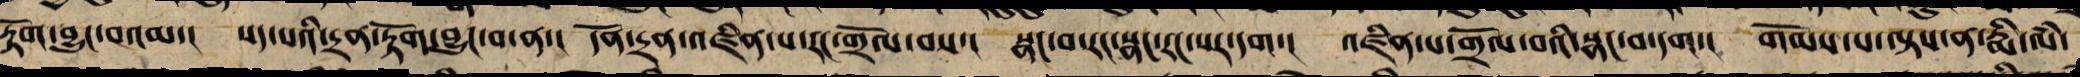རྟོག་བྱུང་བའམ་། སད་པའི་དྲན་རྟོག་བྱུང་བ་ན་། དོན་དྲན་འཛིན་པ་རང་གྲོལ་བས་། སྣང་བ་རང་སྣང་རང་སར་དག་། འཛིན་པ་གྲོལ་བའི་སྣང་བ་དག་། གོམས་པ་ལྟས་ན་རྨི་ལཾ་
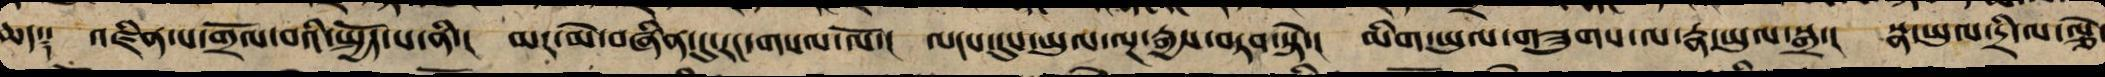ཆད༑ འཛིན་པ་གྲོལ་བའི་སྤྱོད་པ་ནི་། མར་མེ་བཞིན་དུ་རང་གསལ་ལོ་། ལངས་དུས་ཡུལ་ལྔ་རྒྱས་བཏབ་སྟེ་། མིག་ཡུལ་གཟུགས་ལ་རྣ་ཡུལ་སྒྲ་། སྣ་ཡུལ་དྲི་ལ་ལྕེ་
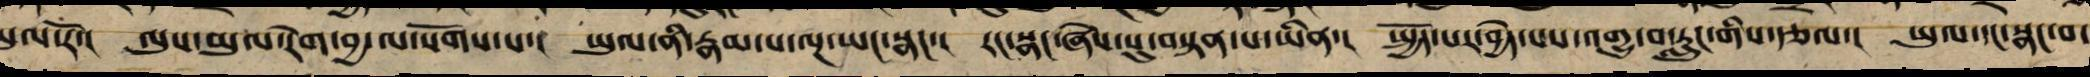ཡུལ་རོ་། ལུས་ཡུལ་རེག་བྱ་ལ་སོགས་པ་། ཡུལ་ནི་རྣམ་པ་ལྔ་ཡང་སྣང་། རང་སྣང་ཞེས་སུ་བསྟན་པ་ཡིན་། སྤྱོད་པར་བྱེད་པས་འགྱུ་བ་རླུང་གི་རྩལ་། ཡུལ་དང་སྣང་བ་
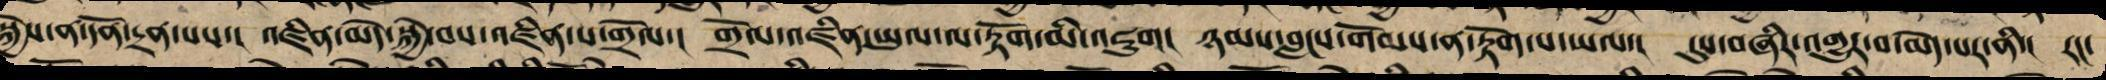སྐྱེས་ནས་དོན་དྲན་པས་། འཛིན་མེད་སྐྱེ་བས་འཛིན་པ་གྲོལ་། གྲོལ་འཛིན་ཡུལ་ལ་རྟོག་མི་འཇུག། ཉམས་བླངས་གོམས་ན་རྟོག་པ་ཡལ་། དུས་བཞིར་འགྱུ་བ་མེད་པར་ནི་། རང་
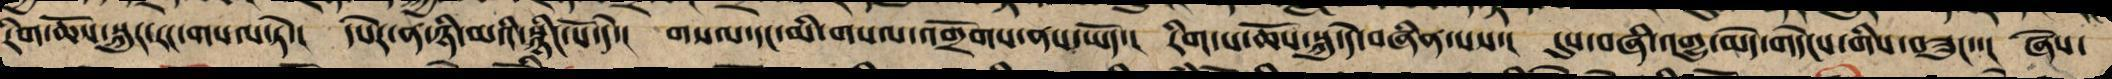རིག་ཆོས་སྐུར་རང་གསལ་ཏེ་། དཔེར་ན་ཉི་མའི་སྙིང་པོ་དེ་། གསལ་དང་མི་གསལ་འགྲོགས་ནས་ཡོད་། རིག་པ་ཆོས་སྐུ་དེ་བཞིན་པས་། དུས་བཞི་འགྱུར་མེད་གདེངས་གིས་བཟུང་་། ཞེས་
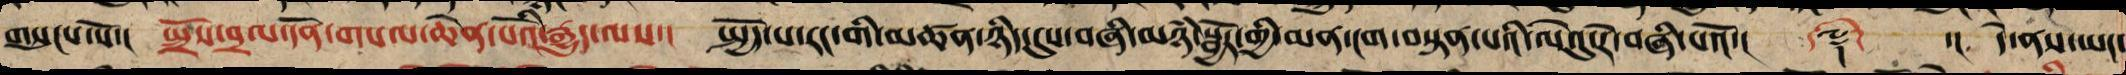གསུངས་སོ་། སྤྲོས་བྲལ་དོན་གསལ་ཆེན་པོའི་རྒྱུད་ལས་། སྤྱོད་པ་རང་གི་མཚན་ཉིད་དུས་བཞི་མཉཾ་སྦྱོར་གྱི་མན་ངག་བསྟན་པའི་ལེའུ་རེ་བཞི་པའོ་།  ༈ ་། དེ་ནས་ཡང་
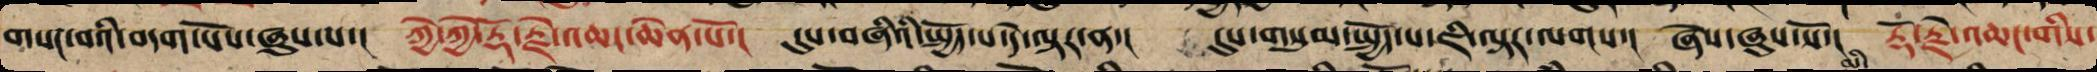གསང་བའི་བདག་པོས་ཞུས་པ་། ཀྱེ་ཀྱེ་རྡོ་རྗེ་འཆང་ཆེན་པོ་། དུས་བཞིའི་སྤྱོད་པ་དེ་ལྟར་ན་། དུས་གསུམ་སྤྱོད་པ་ཇི་ལྟར་ལགས་། ཞེས་ཞུས་སོ་། རྡོ་རྗེ་འཆང་གིས་
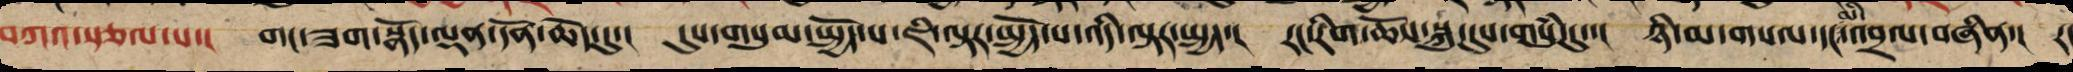བཀའ་སྩལ་པ་། གང་ཟག་སྣོད་ལྡན་དོན་ཆེད་དུ་། དུས་གསུམ་སྤྱོད་པ་ཇི་ལྟར་སྤྱོད་པ་འདི་ལྟར་སྤྱད་། རང་རིག་ཆོས་སྐུ་དུས་གསུཾ་དུ་། ཉི་མ་གསལ་དང་འབྲལ་བཞིན་། རང
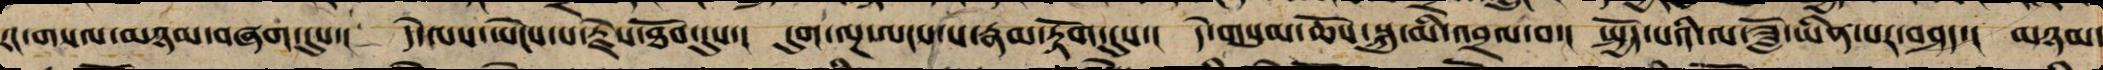རང་གསལ་མཉམ་བཞག་དུས་། དེ་ལས་ཡེངས་པ་རྗེས་ཐོབ་དུས་། དུག་ལྔ་ལངས་པ་རྣམ་རྟོག་དུས་། དེ་གསུམ་ཆོས་སྐུ་མི་འབྲལ་བ་། སྤྱོད་པའི་ལ་ཟློ་ཡིན་པར་བཤད་། མཉམ་
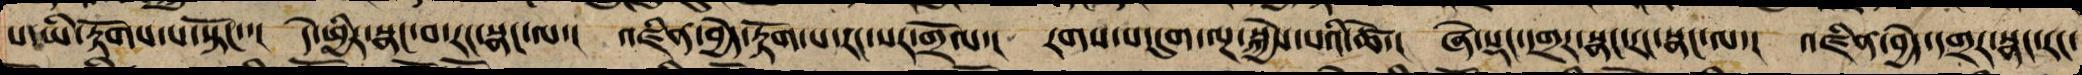པ་ཡི་རྟོགས་པ་སྟོང་་། དེ་ཕྱིར་སྣང་བ་རང་སྣང་ལ་། འཛིན་བྱེད་རྟོག་པ་རང་སར་གྲོལ་། རགས་པ་དུག་ལྔ་སྐྱེས་པའི་ཚེ་། ཞེ་སྡང་དགྲར་སྣང་རང་སྣང་ལ་། འཛིན་བྱེད་དགྲར་སྣང་རང་
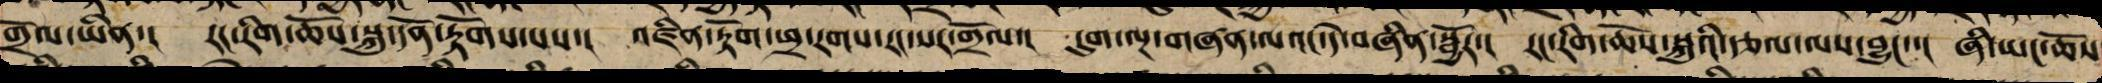གྲོལ་ཡིན་། རང་རིག་ཆོས་སྐུ་དོན་རྟོགས་པས་། འཛིན་རྟོག་ཕྲ་རགས་རང་སར་གྲོལ་། དུག་ལྔ་གཞན་ལའང་དེ་བཞིན་སྦྱོར་། རང་རིག་ཆོས་སྐུའི་རྩལ་ལས་བྱུང་་། ཞི་ཡང་ཆོས་
